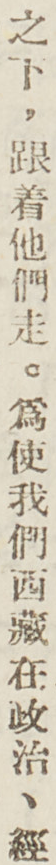之下，跟着他們走。爲使我們西藏在政治、經
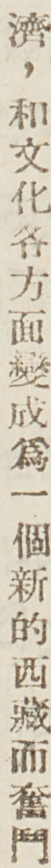濟，和文化各方面變成爲一個新的西藏而奮鬥
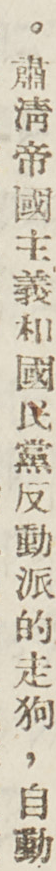。肅清帝國主義和國民黨反動派的走狗，自動
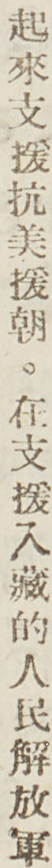起來支援抗美援朝。在支援入藏的人民解放軍
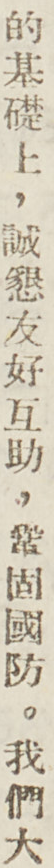的基礎上，誠懇友好互助，鞏固國防。我們大
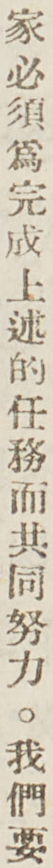家必須爲完成上述的任務而共同努力。我們要
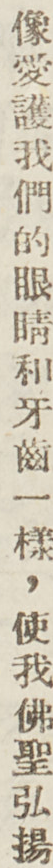像愛護我們的眼睛和牙齒一樣，使我佛聖弘揚
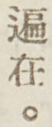遍在。
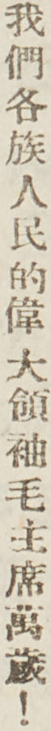我們各族人民的偉大領袖毛主席萬歲！
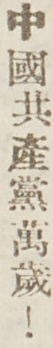中國共產黨萬歲！
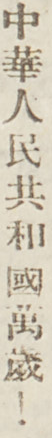中華人民共和國萬歲！
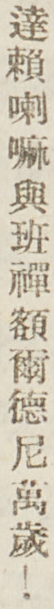達賴喇嘛與班禪額爾德尼萬歲！
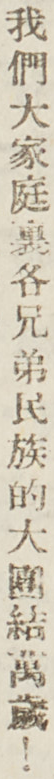我們大家庭裏各兄弟民族的大團結萬歲！
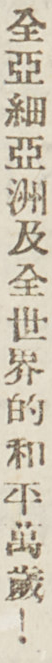全亞細亞洲及全世界的和平萬歲！
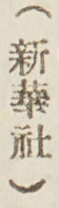（新華社）
